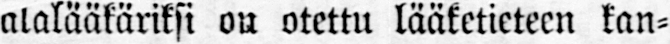alalääkäriksi on otettu lääketieteen kan-
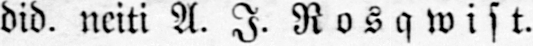did. neiti A. I. Rosqwist.
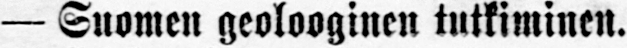— Suomen geolooginen tutkiminen.
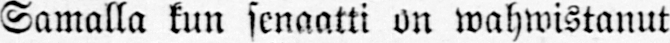Samalla kun senaatti on wahwistanut
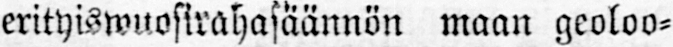erityiswuosirahasäännön maan geolo-
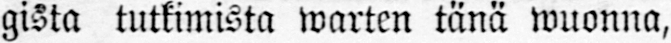gista tutkimista warten tänä wuonna,
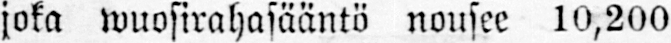joka wuosirahasääntö nousee 10,200
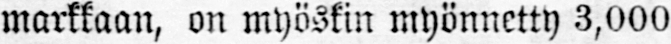markkaan, on myöskin myönnetty 3,000
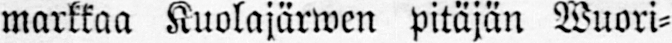markkaa Kuolajärwen pitäjän Wuori-
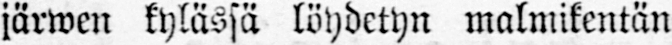järwen kylässä löydetyn malmikentän
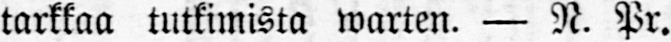tarkkaa tutkimista warten. — N. Pr.
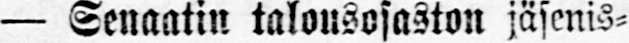— Senaatin talousosaston jäsenis-
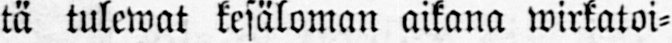tä tulewat kesäloman aikana wirkatoi-
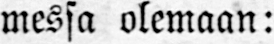messa olemaan:
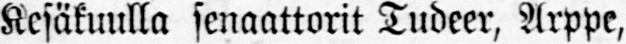Kesäkuulla senaattorit Tudeer, Arppe,
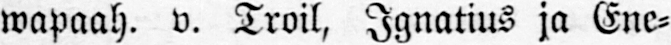wapaah. v. Troil, Ignatius ja Ene-
